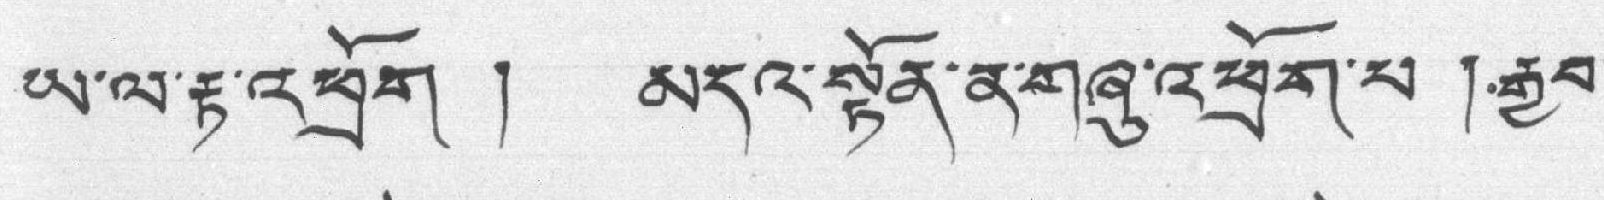ཡ་ལ་རྟ་འཕྲོག ། མདའ་སྟོན་ན་གཞུ་འཕྲུག་པ ། རྒྱབ་
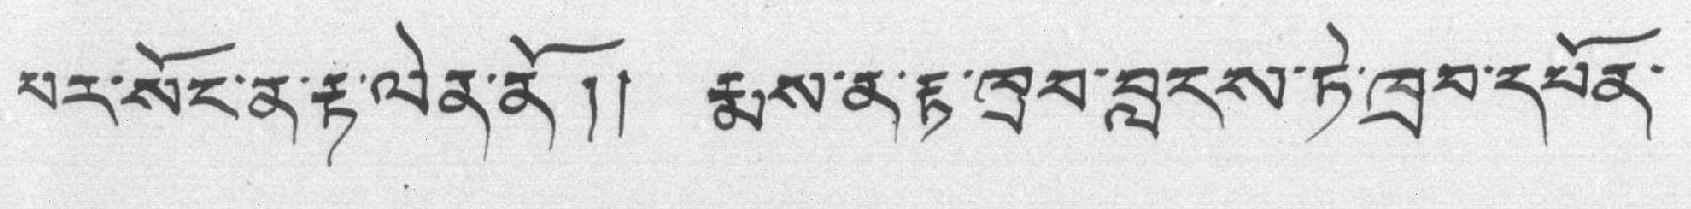པར་སོང་ན་རྟ་ལེན་ནོ།། རྨས་ན་རྟ་ཁྲབ་བླངས་ཏེ་ཁྲབ་དཔོན་
